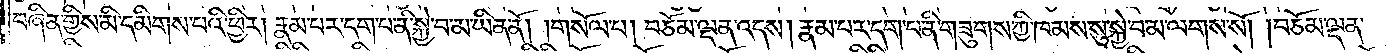བཞིན་གྱིས་མི་དམིགས་པའི་ཕྱིར། རྣམ་པར་དག་པ་ནི་སྐྱེ་བ་མ་ཡིན་ནོ། །གསོལ་པ། བཅོམ་ལྡན་འདས། རྣམ་པར་དག་པ་ནི་གཟུགས་ཀྱི་ཁམས་སུ་སྐྱེ་བ་མ་ལགས་སོ། །བཅོམ་ལྡན་
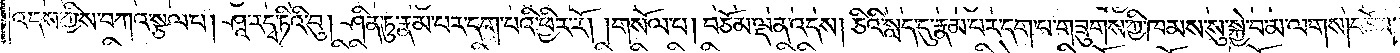འདས་ཀྱིས་བཀའ་སྩལ་པ། ཤཱ་ར་དྭ་ཏིའི་བུ། ཤིན་ཏུ་རྣམ་པར་དག་པའི་ཕྱིར་རོ། །གསོལ་པ། བཅོམ་ལྡན་འདས། ཅིའི་སླད་དུ་རྣམ་པར་དག་པ་གཟུགས་ཀྱི་ཁམས་སུ་སྐྱེ་བ་མ་ལགས། བཅོམ་
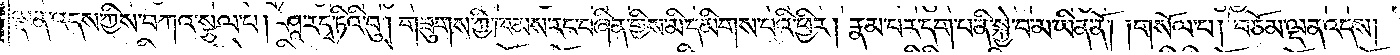ལྡན་འདས་ཀྱིས་བཀའ་སྩལ་པ། ཤཱ་ར་དྭ་ཏིའི་བུ། གཟུགས་ཀྱི་ཁམས་རང་བཞིན་གྱིས་མི་དམིགས་པའི་ཕྱིར། རྣམ་པར་དག་པ་ནི་སྐྱེ་བ་མ་ཡིན་ནོ། །གསོལ་པ། བཅོམ་ལྡན་འདས།
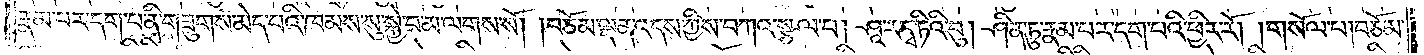རྣམ་པར་དག་པ་ནི་གཟུགས་མེད་པའི་ཁམས་སུ་སྐྱེ་བ་མ་ལགས་སོ། །བཅོམ་ལྡན་འདས་ཀྱིས་བཀའ་སྩལ་པ། ཤཱ་རདྭ་ཏིའི་བུ། ཤིན་ཏུ་རྣམ་པར་དག་པའི་ཕྱིར་རོ། །གསོལ་པ། བཅོམ་
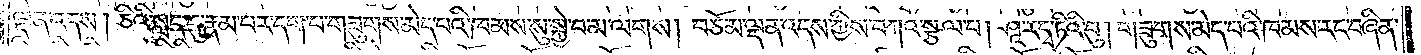ལྡན་འདས། ཅིའི་སླད་དུ་རྣམ་པར་དག་པ་གཟུགས་མེད་པའི་ཁམས་སུ་སྐྱེ་བ་མ་ལགས། བཅོམ་ལྡན་འདས་ཀྱིས་བཀའ་སྩལ་པ། ཤཱ་རདྭ་ཏིའི་བུ། གཟུགས་མེད་པའི་ཁམས་རང་བཞིན་
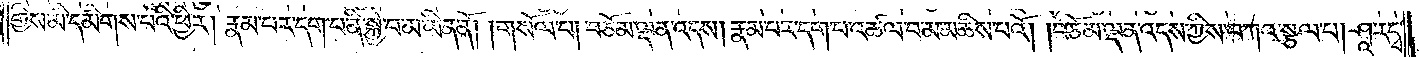གྱིས་མི་དམིགས་པའི་ཕྱིར། རྣམ་པར་དག་པ་ནི་སྐྱེ་བ་མ་ཡིན་ནོ། །གསོལ་པ། བཅོམ་ལྡན་འདས། རྣམ་པར་དག་པ་འཚལ་བ་མ་མཆིས་པའོ། །བཅོམ་ལྡན་འདས་ཀྱིས་བཀའ་སྩལ་པ། ཤཱ་རདྭ་
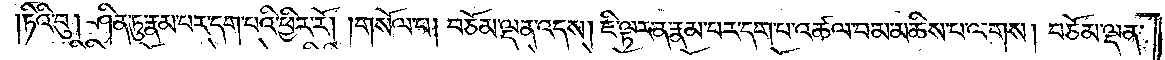ཏིའི་བུ། ཤིན་ཏུ་རྣམ་པར་དག་པའི་ཕྱིར་རོ། །གསོལ་པ། བཅོམ་ལྡན་འདས། ཇི་ལྟར་ན་རྣམ་པར་དག་པ་འཚལ་བ་མ་མཆིས་པ་ལགས། བཅོམ་ལྡན་
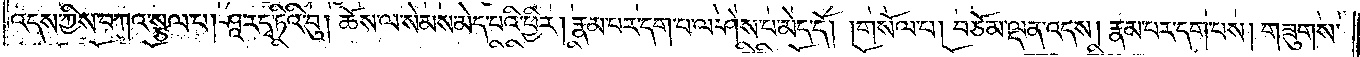འདས་ཀྱིས་བཀའ་སྩལ་པ། ཤཱ་རདྭ་ཏིའི་བུ། ཆོས་ལ་སེམས་མེད་པའི་ཕྱིར། རྣམ་པར་དག་པ་ལ་ཤེས་པ་མེད་དོ། །གསོལ་པ། བཅོམ་ལྡན་འདས། རྣམ་པར་དག་པས། གཟུགས་
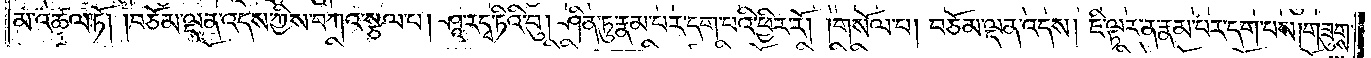མ་འཚལ་ཏོ། །བཅོམ་ལྡན་འདས་ཀྱིས་བཀའ་སྩལ་པ། ཤཱ་རདྭ་ཏིའི་བུ། ཤིན་ཏུ་རྣམ་པར་དག་པའི་ཕྱིར་རོ། །གསོལ་པ། བཅོམ་ལྡན་འདས། ཇི་ལྟར་ན་རྣམ་པར་དག་པས། གཟུགས་
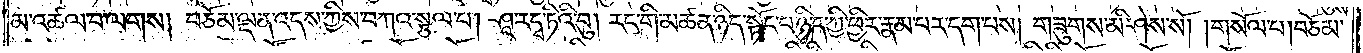མ་འཚལ་བ་ལགས། བཅོམ་ལྡན་འདས་ཀྱིས་བཀའ་སྩལ་པ། ཤཱ་རདྭ་ཏིའི་བུ། རང་གི་མཚན་ཉིད་སྟོང་པ་ཉིད་ཀྱི་ཕྱིར་རྣམ་པར་དག་པས། གཟུགས་མི་ཤེས་སོ། །གསོལ་པ། བཅོམ་
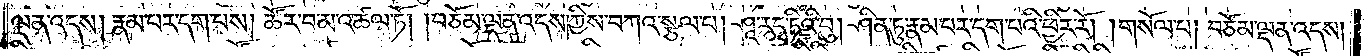ལྡན་འདས། རྣམ་པར་དག་པས། ཚོར་བ་མ་འཚལ་ཏོ། །བཅོམ་ལྡན་འདས་ཀྱིས་བཀའ་སྩལ་པ། ཤཱ་རདྭ་ཏིའི་བུ། ཤིན་ཏུ་རྣམ་པར་དག་པའི་ཕྱིར་རོ། །གསོལ་པ། བཅོམ་ལྡན་འདས།
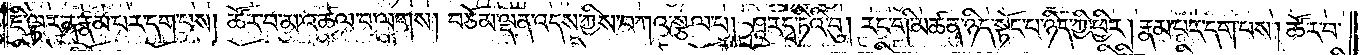ཇི་ལྟར་ན་རྣམ་པར་དག་པས། ཚོར་བ་མ་འཚལ་བ་ལགས། བཅོམ་ལྡན་འདས་ཀྱིས་བཀའ་སྩལ་པ། ཤཱ་རདྭ་ཏིའི་བུ། རང་གི་མཚན་ཉིད་སྟོང་པ་ཉིད་ཀྱི་ཕྱིར། རྣམ་པར་དག་པས། ཚོར་བ་
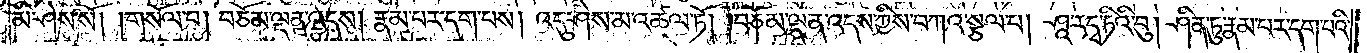མི་ཤེས་སོ། །གསོལ་པ། བཅོམ་ལྡན་འདས། རྣམ་པར་དག་པས། འདུས་ཤེས་མ་འཚལ་ཏོ། །བཅོམ་ལྡན་འདས་ཀྱིས་བཀའ་སྩལ་པ། ཤཱ་རདྭ་ཏིའི་བུ། ཤིན་ཏུ་རྣམ་པར་དག་པའི་
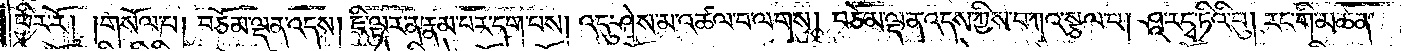ཕྱིར་རོ། །གསོལ་པ། བཅོམ་ལྡན་འདས། ཇི་ལྟར་ན་རྣམ་པར་དག་པས། འདུ་ཤེས་མ་འཚལ་བ་ལགས། བཅོམ་ལྡན་འདས་ཀྱིས་བཀའ་སྩལ་པ། ཤཱ་ར་དྭ་ཏིའི་བུ། རང་གི་མཚན་
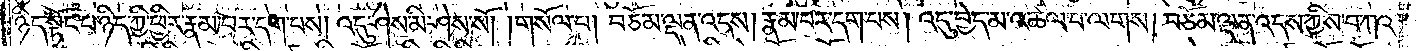ཉིད་སྟོང་པ་ཉིད་ཀྱི་ཕྱིར་རྣམ་པར་དག་པས། འདུ་ཤེས་མི་ཤེས་སོ། །གསོལ་པ། བཅོམ་ལྡན་འདས། རྣམ་པར་དག་པས། འདུ་བྱེད་མ་འཚལ་བ་ལགས། བཅོམ་ལྡན་འདས་ཀྱིས་བཀའ་
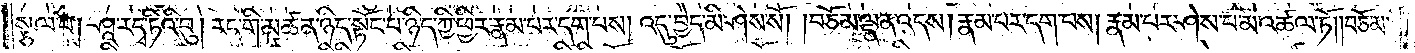སྩལ་པ། ཤཱ་ར་དྭ་ཏིའི་བུ། རང་གི་མཚན་ཉིད་སྟོང་པ་ཉིད་ཀྱི་ཕྱིར་རྣམ་པར་དག་པས། འདུ་བྱེད་མི་ཤེས་སོ། །གསོལ་པ། བཅོམ་ལྡན་འདས། རྣམ་པར་དག་པས། རྣམ་པར་ཤེས་པ་མ་འཚལ་ཏོ། །བཅོམ་
